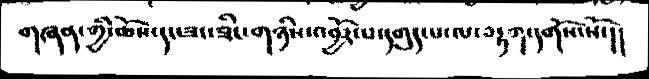གཞན་གྱི་ཆོས་དང་ཟང་ཟིང་གཉིས་འབྱོར་པ་དགུད་པ་ལ་བརྟག་དགོས་སོ་།།
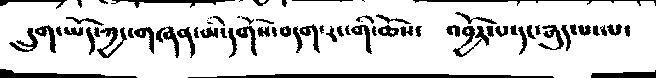དྲུག་ཡོད་ཀྱང་གཞན་མི་དགོས་བདག་རང་གི་ཆོས་   འབྱོར་པ་དང་སྒུད་པ་ལ་
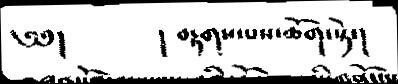༄༅།  ། བརྟགས་པས་ཆོག་སྟེ་།
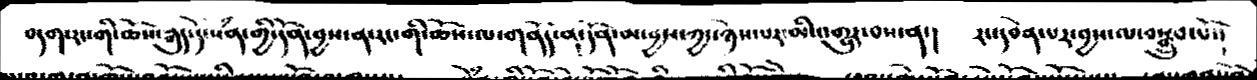བདག་རང་གི་ཆོས་རྒུད་དེ་སེཾན་གྱི་དོན་བྱས་ན་རང་གི་ཆོས་ལ་གནོད་ན་དོན་མ་བྱས་ཀྱང་ཉེས་པར་མི་འགྱུར་བས་ན་།  རང་དབེན་པར་བྱས་ལ་བསྒྲུབ་པོ་།
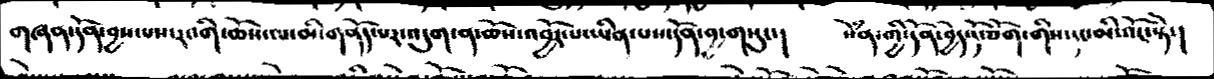གཞན་དོན་བྱས་པས་རང་གི་ཆོས་ལ་མི་གནོད་པར་འདུག་ན་ཆོས་འབྱོར་པ་ཡིན་པ་དོན་གྱ་གསུང་།  སེཾན་གྱི་དོན་བྱེད་དོ་ཅོག་གིས་དང་མི་འོང་སྟེ་།
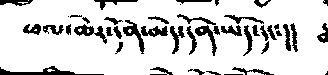ཕལ་ཆེར་དོན་མེད་དོན་ཡོད་དང་།།
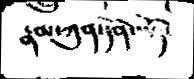རྣམ་ཀུན་དོན་ཡོད་
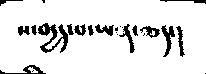ས་བདྱད་པ་ཡན་ཆད་།
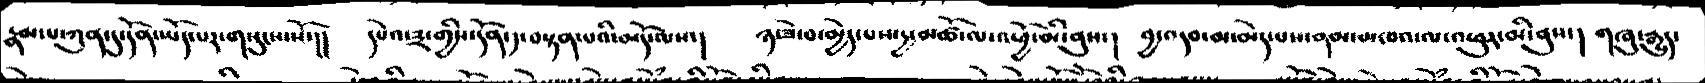རྣམ་པ་ཀུན་དུ་དོན་ཡོད་པར་གསུངས་སོ་།།   དཔེའ་༣་གྱིས་དོན་༡་བསྟན་པའི་མདོ་ལས་།  ཉ་ཟེ་བ་མྱེད་པས་དྱ་མཚོ་ལ་འཕྱོ་མི་ནུས་།  བྱ་འདབ་མ་མེད་པས་ནམ་མཁའ་ལ་འཕུར་མི་ནུས་།  གཞུ་རྒྱུད་
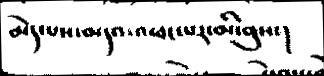མེད་པས་མདའ་འཕང་པར་མི་ནུས་།
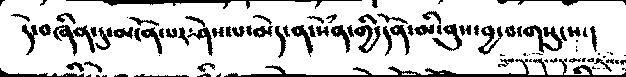དེ་བཞིན་དུ་མངོན་པར་ཤེས་པ་མེད་ན་སེཾན་གྱི་དོན་མི་ནུས་བྱ་བ་གསུངས་།
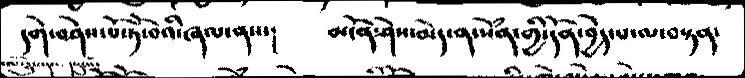དགེ་བཤེས་པོ་ཏེ་བའི་ཞལ་ནས་།  མངོན་ཤེས་མེད་ན་སེཾས་གྱི་དོན་བྱེད་པ་ལ་བསྟན་
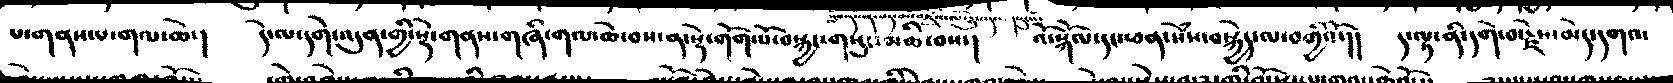པ་གནས་པ་གལ་ཆེ་།  དེ་ལ་དགེ་འདུན་གྱི་སྟེ་གནས་གཞི་གལ་ཆེ་བས་ན་སྡེ་གོག་པ་བསྐྱ་གསུང་མཆི་བས་།  འོ་སྐོལ་དང་ཕན་སེཾས་བསྐྱེད་ལ་བགྱིའོ་།།  ད་ལྟ་ནི་དགེ་བ་རྗེས་མེད་དགའ་
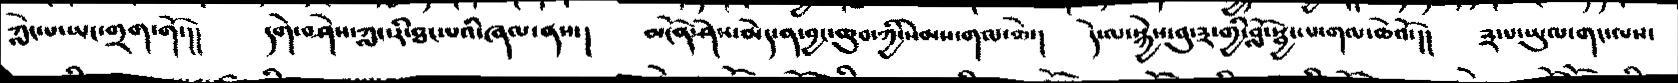ཀླེང་པ་ཡང་གྲག་གོ་།།  དགེ་བཤེས་ཀླང་རི་ཐང་པའི་ཞལ་ནས་།  མངོན་ཤེས་མེད་ན་བྱང་ཆུབ་ཀྱི་སེམས་གལ་ཆེ་།  དེ་ལ་སྐྱེས་བུ་༣་གྱི་བློ་སྦྱོང་པ་གལ་ཆེའོ་།།  ༣་པ་ཡུལ་གང་ལས་
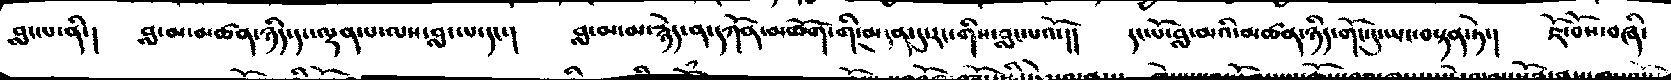བླང་པ་ནི་།    བླ་མ་མཚན་ཉིད་དང་ལྡན་པ་ལས་བླང་པ་དང་།    བླ་མ་མ་རྙེད་ན་དཀོན་མཆོག་གི་མདུན་དུ་རང་གིས་བླང་པའོ་།  དང་པོ་བླ་མའི་མཚན་ཉིད་གོང་དུ་ཡང་བསྟན་ཏེ་།  ཇོ་བོས་བཞི་
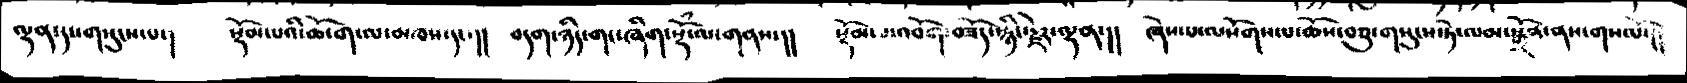ལྡན་དས་གསུངས་པ་།  སྡོམ་པའི་ཆོ་ག་ལ་མཁས་དང་།།  བདག་ཉིད་གང་ཞིག་སྡོཾ་ལ་གནས་།།  སྡོམ་པ་འབོག་བཟོད་རྙིང་རྗེར་ལྡན་།།  ཞེས་པ་ལསོགས་པ་ཆོས་བཅུ་གསུངས་ཏེ་ལམ་སྒྲོན་ནས་གསལོ་།།
